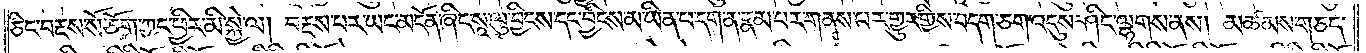ཅིང་བརྔས་སོ་ཅོག་ཀྱང་ཕྱིར་མི་སྐྱེ་ལ། བརྔས་པར་ཡང་མངོན་ཞིང་སཱ་ལུ་བྱིངས་དང་བྱིངས་མ་ཡིན་པ་དག་ན་རྣམ་པར་གནས་པར་གྱུར་གྱིས་བདག་ཅག་འདུས་ཤིང་ལྷགས་ནས། མཚམས་གཅད་
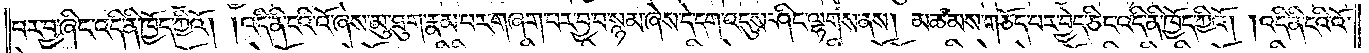བར་བྱ་ཞིང་འདི་ནི་ཁྱོད་ཀྱིའོ། །འདི་ནི་ངའི་འོ་ཞེས་མུ་ཐུག་རྣམ་པར་གཞག་པར་བྱ་བ་སྙམ་ཞེས་དེ་དག་འདུས་ཤིང་ལྷགས་ནས། མཚམས་གཅོད་པར་བྱེད་ཅིང་འདི་ནི་ཁྱོད་ཀྱིའོ། །འདི་ནི་ངའི་འོ་
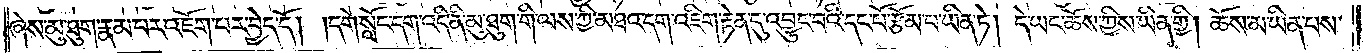ཞེས་མུ་ཐུག་རྣམ་པར་འཇོག་པར་བྱེད་དོ། །དགེ་སློང་དག་འདི་ནི་མུ་ཐུག་གི་ལས་ཀྱི་མཐའ་དག་འཇིག་རྟེན་དུ་འབྱུང་བའི་དང་པོ་རྩོམ་པ་ཡིན་ཏེ། དེ་ཡང་ཆོས་ཀྱིས་ཡིན་གྱི། ཆོས་མ་ཡིན་པས་
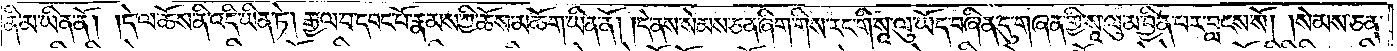ནི་མ་ཡིན་ནོ། །དེ་ལ་ཆོས་ནི་འདི་ཡིན་ཏེ། རྒྱལ་བ་དབང་པོ་རྣམས་ཀྱི་ཆོས་མཆོག་ཡིན་ནོ། །དེ་ནས་སེམས་ཅན་ཞིག་གིས་རང་གི་སཱ་ལུ་ཡོད་བཞིན་དུ་གཞན་གྱི་སཱ་ལུ་མ་བྱིན་པར་བླངས་སོ། །སེམས་ཅན་
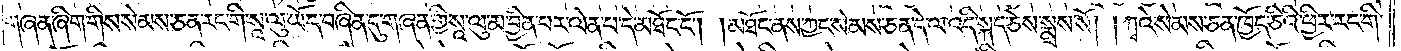གཞན་ཞིག་གིས་སེམས་ཅན་རང་གི་སཱ་ལུ་ཡོད་བཞིན་དུ་གཞན་གྱི་སཱ་ལུ་མ་བྱིན་པར་ལེན་པ་དེ་མཐོང་ངོ༌། །མཐོང་ནས་ཀྱང་སེམས་ཅན་དེ་ལ་འདི་སྐད་ཅེས་སྨྲས་སོ། །ཀྭའི་སེམས་ཅན་ཁྱོད་ཅིའི་ཕྱིར་རང་གི་
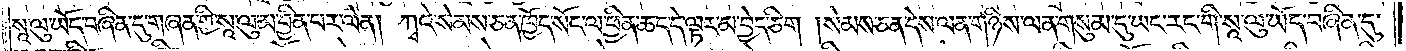སཱ་ལུ་ཡོད་བཞིན་དུ་གཞན་གྱི་སཱ་ལུ་མ་བྱིན་པར་ལེན། ཀྭའི་སེམས་ཅན་ཁྱོད་སོང་ལ་ཕྱིན་ཆད་དེ་ལྟར་མ་བྱེད་ཅིང༌། སེམས་ཅན་དེས་ལན་གཉིས་ལན་གསུམ་དུ་ཡང་རང་གི་སཱ་ལུ་ཡོད་བཞིན་དུ་
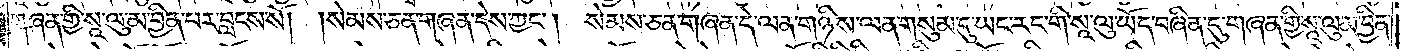གཞན་གྱི་སཱ་ལུ་མ་བྱིན་པར་བླངས་སོ། །སེམས་ཅན་གཞན་དེས་ཀྱང༌། སེམས་ཅན་གཞན་དེ་ལན་གཉིས་ལན་གསུམ་དུ་ཡང་རང་གི་སཱ་ལུ་ཡོད་བཞིན་དུ་གཞན་གྱི་སཱ་ལུ་མ་བྱིན་
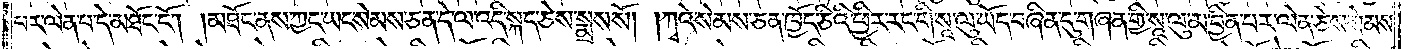པར་ལེན་པ་དེ་མཐོང་ངོ༌། །མཐོང་ནས་ཀྱང་ཡང་སེམས་ཅན་དེ་ལ་འདི་སྐད་ཅེས་སྨྲས་སོ། །ཀྭའེ་སེམས་ཅན་ཁྱོད་ཅིའི་ཕྱིར་རང་གི་སཱ་ལུ་ཡོད་བཞིན་དུ་གཞན་གྱི་སཱ་ལུ་མ་བྱིན་པར་ལེན་ཅེས་སེམས་
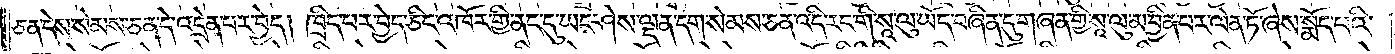ཅན་དེས་སེམས་ཅན་དེ་འདྲེན་པར་བྱེད། ཁྲིད་པར་བྱེད་ཅིང་འཁོར་གྱི་ནང་དུ་ཡང་ཤེས་ལྡན་དག་སེམས་ཅན་འདི་རང་གི་སཱ་ལུ་ཡོད་བཞིན་དུ་གཞན་གྱི་སཱ་ལུ་མ་བྱིན་པར་ལེན་ཏོ་ཞེས་སྨོད་པའི་
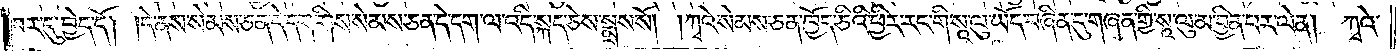བར་དུ་བྱེད་དོ། །དེ་ནས་སེམས་ཅན་དེ་དག་གིས་སེམས་ཅན་དེ་དག་ལ་འདི་སྐད་ཅེས་སྨྲས་སོ། །ཀྭའི་སེམས་ཅན་ཁྱོད་ཅིའི་ཕྱིར་རང་གི་སཱ་ལུ་ཡོད་བཞིན་དུ་གཞན་གྱི་སཱ་ལུ་མ་བྱིན་པར་ལེན།<gap>ཀྭའི་
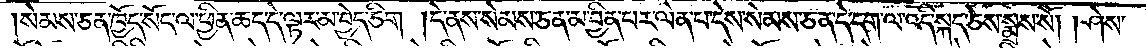སེམས་ཅན་ཁྱོད་སོང་ལ་ཕྱིན་ཆད་དེ་ལྟར་མ་བྱེད་ཅིག །དེ་ནས་སེམས་ཅན་མ་བྱིན་པར་ལེན་པ་དེས་སེམས་ཅན་དེ་དག་ལ་འདི་སྐད་ཅེས་སྨྲས་སོ། །ཤེས་
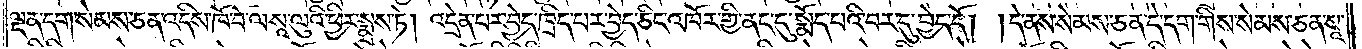ལྡན་དག་སེམས་ཅན་འདིས་ཁོ་བོ་ལ་སཱ་ལུའི་ཕྱིར་སྨྲས་ཏེ། འདྲེན་པར་བྱེད་ཁྲིད་པར་བྱེད་ཅིང་འཁོར་གྱི་ནང་དུ་སྨོད་པའི་བར་དུ་བྱེད་དོ། །དེ་ནས་སེམས་ཅན་དེ་དག་གིས་སེམས་ཅན་སཱ་
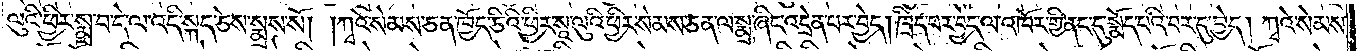ལུའི་ཕྱིར་སྨྲ་བ་དེ་ལ་འདི་སྐད་ཅེས་སྨྲས་སོ། །ཀྭའི་སེམས་ཅན་ཁྱོད་ཅིའི་ཕྱིར་སཱ་ལུའི་ཕྱིར་སེམས་ཅན་ལ་སྨྲ་ཞིང་འདྲེན་པར་བྱེད། ཁྲིད་པར་བྱེད་ལ་འཁོར་གྱི་ནང་དུ་སྨོད་པའི་བར་དུ་བྱེད། ཀྭའེ་སེམས་
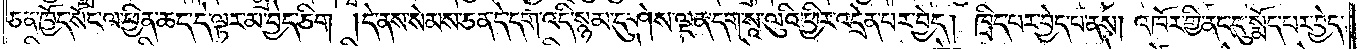ཅན་ཁྱོད་སོང་ལ་ཕྱིན་ཆད་དེ་ལྟར་མ་བྱེད་ཅིག །དེ་ནས་སེམས་ཅན་དེ་དག་འདི་སྙམ་དུ་ཤེས་ལྡན་དག་སཱ་ལུའི་ཕྱིར་འདྲེན་པར་བྱེད། ཁྲིད་པར་བྱེད་པ་ནས། འཁོར་གྱི་ནང་དུ་སྨོད་པར་བྱེད་
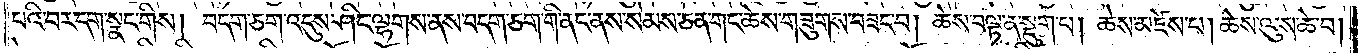པའི་བར་དག་སྣང་གིས། བདག་ཅག་འདུས་ཤིང་ལྷགས་ནས་བདག་ཅག་གི་ནང་ནས་སེམས་ཅན་གང་ཆེས་གཟུགས་བཟང་བ། ཆེས་བལྟ་ན་སྡུག་པ། ཆེས་མཛེས་པ། ཆེས་ལུས་ཆེ་བ།
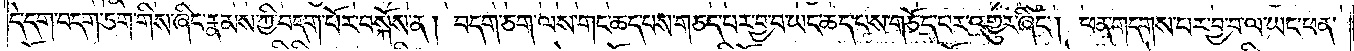དེ་དག་བདག་ཅག་གིས་ཞིང་རྣམས་ཀྱི་བདག་པོར་བསྐོས་ན། བདག་ཅག་ལས་གང་ཆད་པས་གཅད་པར་བྱ་བ་ཡང་ཆད་པས་གཅོད་པར་འགྱུར་ཞིང༌། ཕན་གདགས་པར་བྱ་བ་ལ་ཡང་ཕན་
